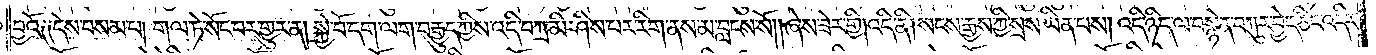བྱའོ༑ ༑དེས་བསམ་པ། གལ་ཏེ་སོང་བར་གྱུར་ན། སྐྱེ་བོ་དག་ལག་བརྒྱུད་ཀྱིས་འདི་བཀྲ་མི་ཤིས་པར་རིག་ནས་མ་བླངས་སོ། །ཞེས་ཟེར་གྱི། འདི་ནི། སངས་རྒྱས་ཀྱི་སྲས་ཡིན་པས། འདི་ཉིད་ལ་བསྙེན་བཀུར་བྱེད་ཅིང་འདིར་
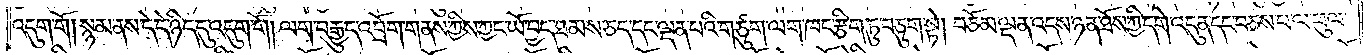འདུག་གོ། སྙམ་ནས་དེ་དེ་ཉིད་དུ་འདུག་གོ། ལག་བརྒྱུད་འབྲོག་ནས་ཀྱིས་ཀྱང་ཡོ་བྱད་ཐམས་ཅད་དང་ལྡན་པའི་གཙུག་ལག་ཁང་རྩིག་ཏུ་བཅུག་སྟེ། བཅོམ་ལྡན་འདས་ཉན་ཐོས་ཀྱི་དགེ་འདུན་དང་བཅས་པ་ལ་ཕུལ་
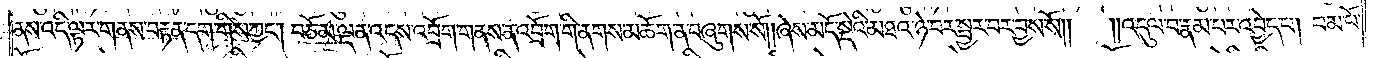ནས་འདི་ལྟར་གནས་བརྟན་དག་གིས་ཀྱང༌། བཅོམ་ལྡན་འདས་འབྲོག་གནས་ན་འབྲོག་གི་ནགས་མཆོག་ན་བཞུགས་སོ། །ཞེས་མདོ་སྡེའི་མཐའ་ཉེ་བར་སྦྱར་བར་བྱས་སོ༎  ༎འདུལ་བ་རྣམ་པར་འབྱེད་པ། བམ་པོ་
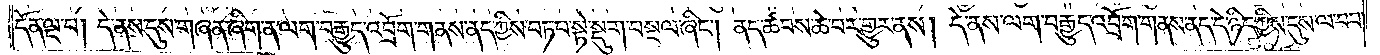དོན་ལྔ་པ། དེ་ནས་དུས་གཞན་ཞིག་ན་ལག་བརྒྱུད་འབྲོག་གནས་ནད་ཀྱིས་བཏབ་སྟེ་སྡུག་བསྔལ་ཞིང༌། ནད་ཚབས་ཆེ་བར་གྱུར་ནས། དེ་ནས་ལག་བརྒྱུད་འབྲོག་གནས་ནད་དེ་ཉིད་ཀྱིས་དུས་ལ་བབ་
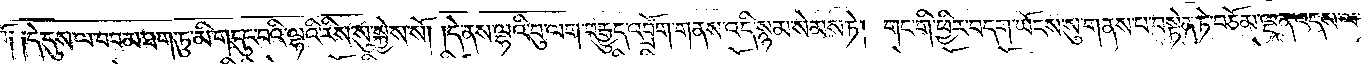བོ༑ ༑དེ་དུས་ལ་བབ་མ་ཐག་ཏུ་མི་གདུང་བའི་ལྷའི་རིས་སུ་སྐྱེས་སོ། །དེ་ནས་ལྷའི་བུ་ལག་བརྒྱུད་འབྲོག་གནས་འདི་སྙམ་སེམས་ཏེ། གང་གི་ཕྱིར་བདག་ཡོངས་སུ་གནས་པ་བསྟེན་ཏེ་བཅོམ་ལྡན་འདས་ལ་
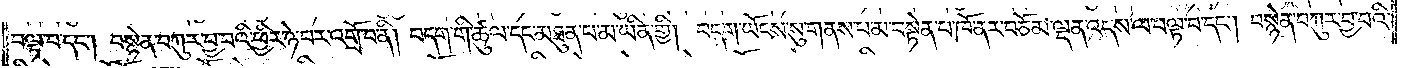བལྟ་བ་དང༌། བསྙེན་བཀུར་བྱ་བའི་ཕྱིར་ཉེ་བར་འགྲོ་བ་ནི། བདག་གི་ཚུལ་དང་མཐུན་པ་མ་ཡིན་གྱི། བདག་ཡོངས་སུ་གནས་པ་མ་བསྟེན་པ་ཁོ་ནར་བཅོམ་ལྡན་འདས་ལ་བལྟ་བ་དང༌། བསྙེན་བཀུར་བྱ་བའི་
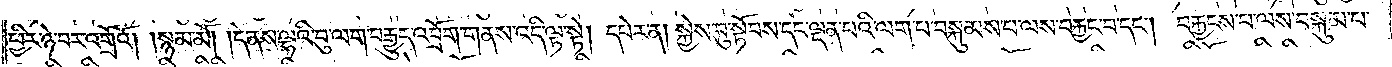ཕྱིར་ཉེ་བར་འགྲོའོ། །སྙམ་མོ། །དེ་ནས་ལྷའི་བུ་ལག་བརྒྱུད་འབྲོག་གནས་འདི་ལྟ་སྟེ། དཔེར་ན། སྐྱེས་བུ་སྟོབས་དང་ལྡན་པའི་ལག་པ་བསྐུམས་པ་ལས་བརྐྱངས་པ་དང༌། བརྐྱངས་པ་ལས་བསྐུམ་པ་
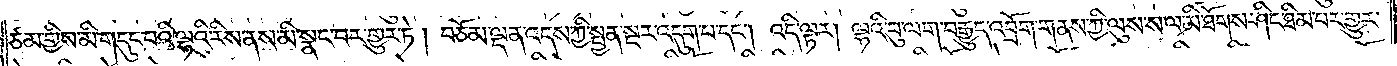ཙམ་གྱིས་མི་གདུང་བའི་ལྷའི་རིས་ནས་མི་སྣང་བར་གྱུར་ཏེ། བཅོམ་ལྡན་འདས་ཀྱི་སྤྱན་སྔར་འདུག་པ་དང༌། འདི་ལྟར། ལྷའི་བུ་ལག་བརྒྱུད་འབྲོག་གནས་ཀྱི་ལུས་ས་ལ་མི་ཐོགས་ཤིང་ཐིམ་པར་གྱུར་
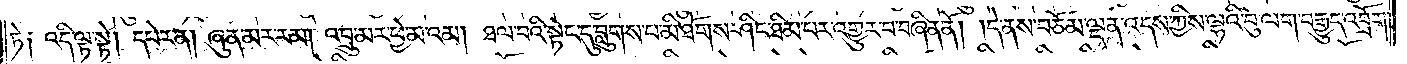ཏེ༑ འདི་ལྟ་སྟེ། དཔེར་ན། ཞུན་མར་རམ། འབྲུ་མར་ཕྱེ་མ་འམ། ཐལ་བའི་སྟེང་དུ་བླུགས་པ་མི་ཐོགས་ཤིང་ཐིམ་པར་འགྱུར་བ་བཞིན་ནོ། །དེ་ནས་བཅོམ་ལྡན་འདས་ཀྱིས་ལྷའི་བུ་ལག་བརྒྱུད་འབྲོག་
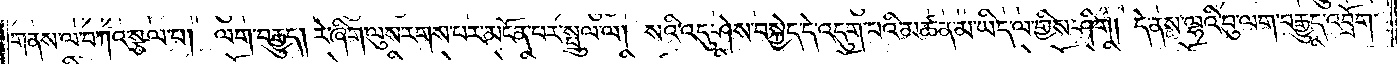གནས་ལ་བཀའ་སྩལ་པ། ལག་བརྒྱུད། རེ་ཞིག་ལུས་རགས་པར་མངོན་པར་སྤྲུལ་ལ། སའི་འདུ་ཤེས་བསྐྱེད་དེ་འདུག་པའི་མཚན་མ་ཡིད་ལ་གྱིས་ཤིག །དེ་ནས་ལྷའི་བུ་ལག་བརྒྱུད་འབྲོག་
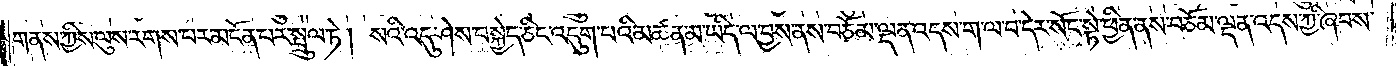གནས་ཀྱིས་ལུས་རགས་པར་མངོན་པར་སྤྲུལ་ཏེ། སའི་འདུ་ཤེས་བསྐྱེད་ཅིང་འདུག་པའི་མཚན་མ་ཡིད་ལ་བྱས་ནས་བཅོམ་ལྡན་འདས་ག་ལ་བ་དེར་སོང་སྟེ་ཕྱིན་ནས་བཅོམ་ལྡན་འདས་ཀྱི་ཞབས་
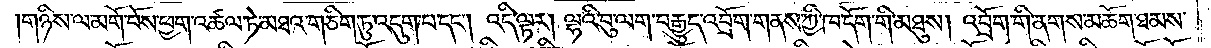གཉིས་ལ་མགོ་བོས་ཕྱག་འཚལ་ཏེ་མཐའ་གཅིག་ཏུ་འདུག་པ་དང༌། འདི་ལྟར། ལྷའི་བུ་ལག་བརྒྱུད་འབྲོག་གནས་ཀྱི་ཁ་དོག་གི་མཐུས། འབྲོག་གི་ནགས་མཆོག་ཐམས་
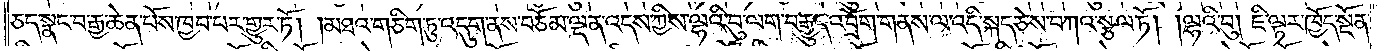ཅད་སྣང་བ་རྒྱ་ཆེན་པོས་ཁྱབ་པར་གྱུར་ཏོ། །མཐའ་གཅིག་ཏུ་འདུག་ནས་བཅོམ་ལྡན་འདས་ཀྱིས་ལྷའི་བུ་ལག་བརྒྱུད་འབྲོག་གནས་ལ་འདི་སྐད་ཅེས་བཀའ་སྩལ་ཏོ། །ལྷའི་བུ། ཇི་ལྟར་ཁྱོད་སྔོན་
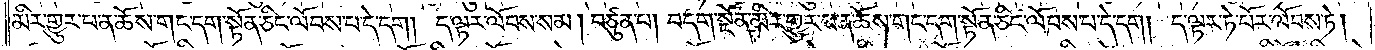མིར་གྱུར་པ་ན་ཆོས་གང་དག་སྟོན་ཅིང་ལོབས་པ་དེ་དག །ད་ལྟར་ལོབས་སམ། བཙུན་པ། བདག་སྔོན་མིར་གྱུར་པ་ན་ཆོས་གང་དག་སྟོན་ཅིང་ལོབས་པ་དེ་དག །ད་ལྟར་ཏེ་པོར་ལོབས་ཏེ།
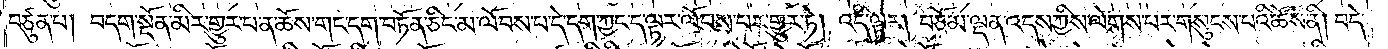བཙུན་པ། བདག་སྔོན་མིར་གྱུར་པ་ན་ཆོས་གང་དག་བཏོན་ཅིང་མ་ལོབས་པ་དེ་དག་ཀྱང་ད་ལྟར་ལོབས་པར་གྱུར་ཏེ། འདི་ལྟར། བཅོམ་ལྡན་འདས་ཀྱིས་ལེགས་པར་གསུངས་པའི་ཆོས་ནི། བདེ་
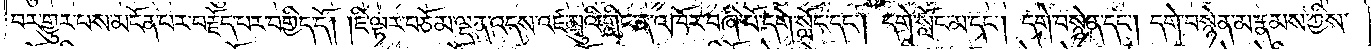བར་གྱུར་པས་མངོན་པར་བརྗོད་པར་བགྱིད་དོ། །ཇི་ལྟར་བཅོམ་ལྡན་འདས་འྫམྦུའི་གླིང་ན་འཁོར་བཞི་པོ་དགེ་སློང་དང༌། དགེ་སློང་མ་དང༌། དགེ་བསྙེན་དང༌། དགེ་བསྙེན་མ་རྣམས་ཀྱིས་
